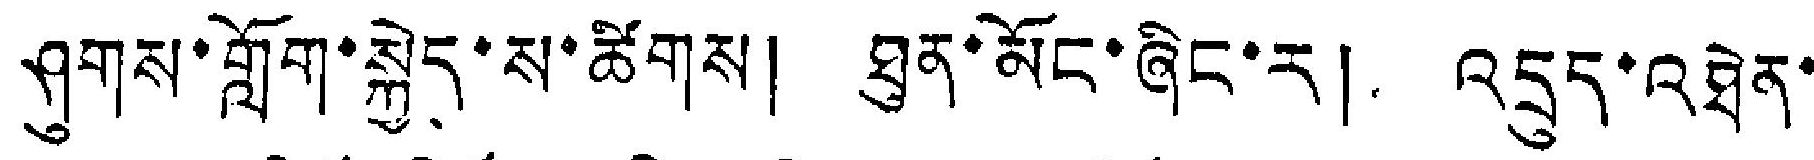ཤུགས་གློག་སྐྱེད་ས་ཚིགས། ཐུན་མོང་ཞིང་ར། འདྲུད་འཐེན་
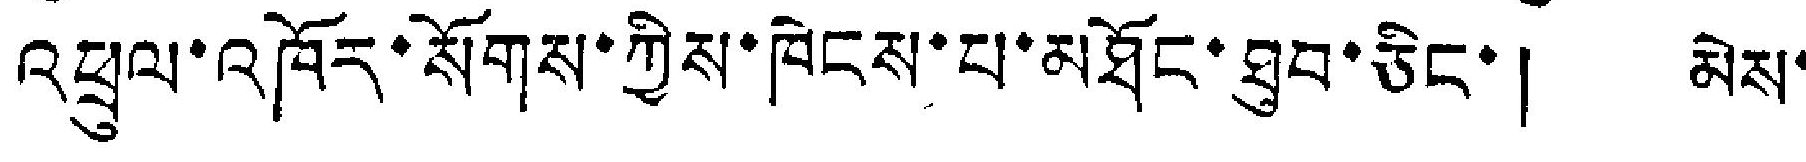འཕྲུལ་འཁོར་སོགས་ཀྱིས་ཁེངས་པ་མཐོང་ཐུབ་ཅིང་། མེས་
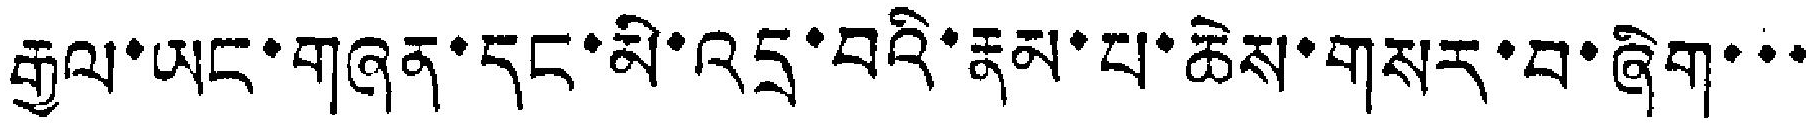རྒྱལ་ཡང་གཞན་དང་མི་འདྲ་བའི་རྣམ་པ་ཆེས་གསར་བ་ཞིག་་་
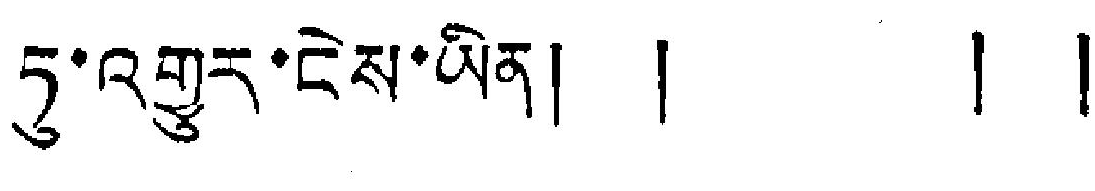ཏུ་འགྱུར་ངེས་ཡིན། ། ། །
